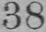38
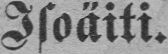Isoäiti.
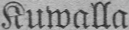Kuwalla.
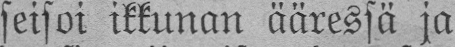Elli seisoi ikkunan ääressä ja
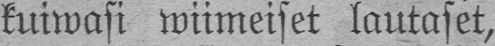kuiwasi wiimeiset lautaset,
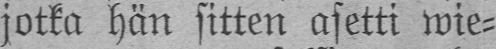jotka hän sitten asetti wie-
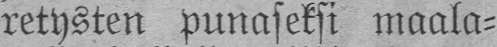retysten punaseksi maala-
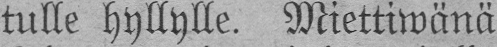tulle hyllylle. Miettiwänä
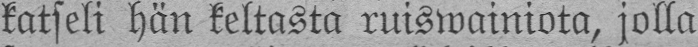katseli hän keltasta ruiswainiota, jolla
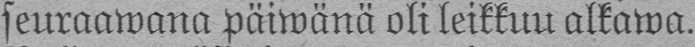seuraawana päiwänä oli leikkuu alkawa.
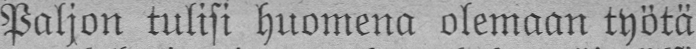Paljon tulisi huomena olemaan työtä
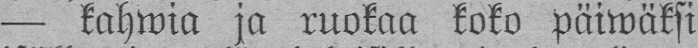— kahwia ja ruokaa koko päiwäksi
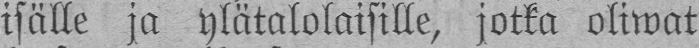isälle ja ylätalolaisille, jotka oliwat
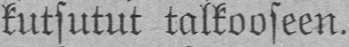kutsutut talkooseen.
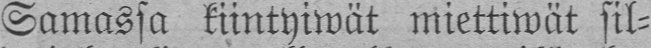Samassa kiintyiwät miettiwät sil-
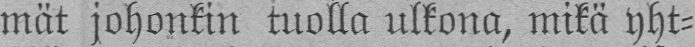mät johonkin tuolla ulkona, mikä yht-
